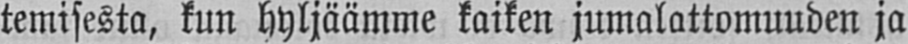temisesta, kun hyljäämme kaiken jumalattomuuden ja
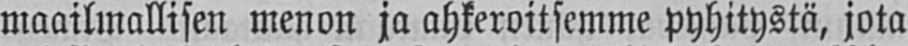maailmallisen menon ja ahkeroitsemme pyhitystä, jota
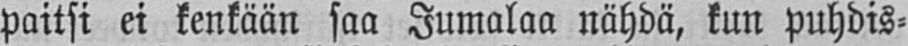paitsi ei kenkään saa Jumalaa nähdä, kun puhdis-
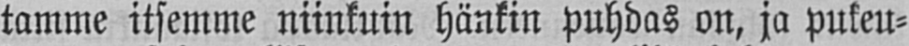tamme itsemme niinkuin hänkin puhdas on, ja pukeu-
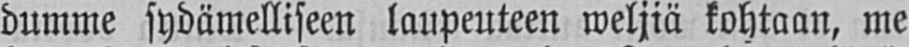dumme sydämelliseen laupeuteen weljiä kohtaan, me
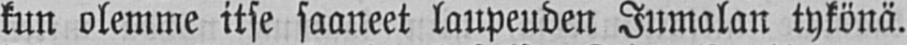kun olemme itse saaneet laupeuden Jumalan tykönä.
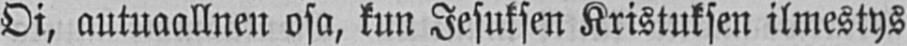Oi, autuaallnen osa, kun Jesuksen Kristuksen ilmestys
